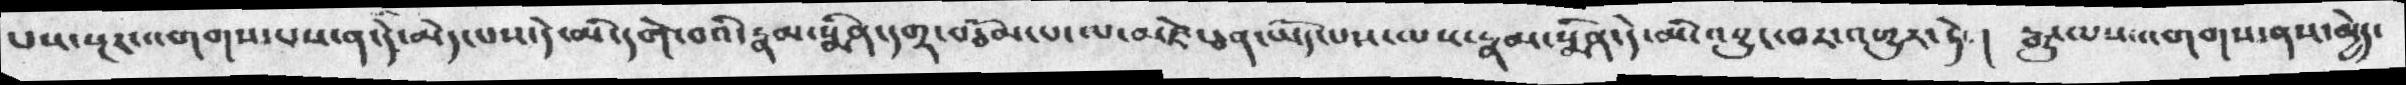པས་སྔར་འགགས་པས་ན་དེ་མེད་པས་དེ་མི་དགེ་བའི་རྣམ་སྨིན་དགྲ་བཅོམ་པ་ལ་མཛེ་ཅན་ཡོད་པས་ལས་རྣམ་སྨིན་དེ་མི་འབྱུང་བར་འགྱུར་ཏེ་ །  རྒྱུ་ལས་འགགས་ནས་མྱེད་
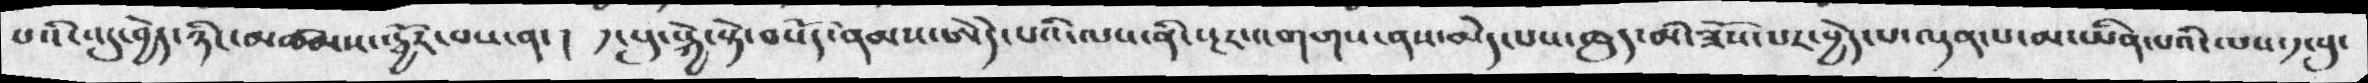པའི་འདུ་བྱེད་ཉིང་མཚམས་སྦྱོར་བས་ན་ །  ༡་པུ་སྐྱེ་སྟེ་བསོད་ནམས་ཨེདེ་པའི་ལས་ནི་སྔར་འགགས་ནས་མེད་པས་ཆུད་མི་ཟོས་པར་བྱེད་པ་ལྡན་པ་མ་ཡིན་པའི་ལས་༡་པུ་
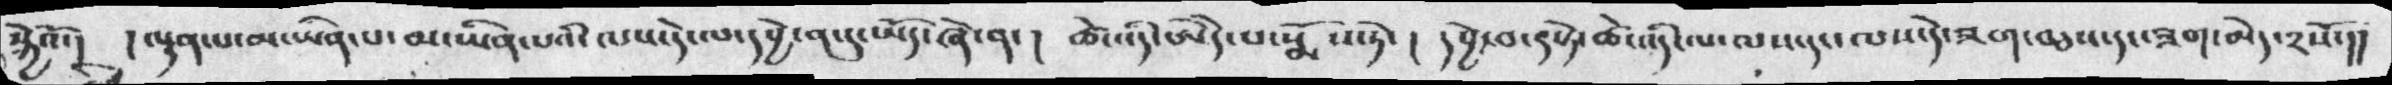སྐྱེའོ་།  །ལྡན་པ་མ་ཡིན་པའི་ལས་དེ་ལ་དབྱེ་ན་དུ་ཡོད་ཞེ་ན་ །  ཚེ་འདི་ཨེདེ་པ་སྨོས་ཏེ་ །  དབྱེ་བ་༩སྟེ་ཚེ་འདི་ལ་ལས་དང་ལས་དེ་ཟག་བཅས་དང་ཟག་མེད་༢སོ་།།
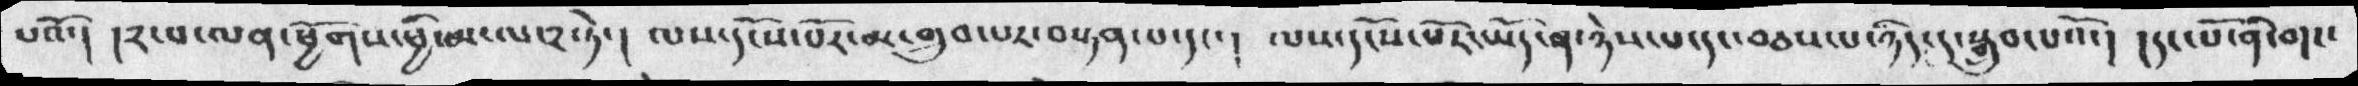པའོ་།  །༢་པ་ལན་ཕྱོགས་ཕྱི་མ་ལ་༢་ཏེ་།  ལས་དངོས་པོར་མ་གྲུབ་པར་བསྟན་པ་དང་ ། ལས་དངོས་པོར་ཡོད་ན་ཉེས་པ་དང་བཅས་པ་ཉིད་དུ་སྒྲུབ་པའོ་།  །དང་པོ་ནི་གང་
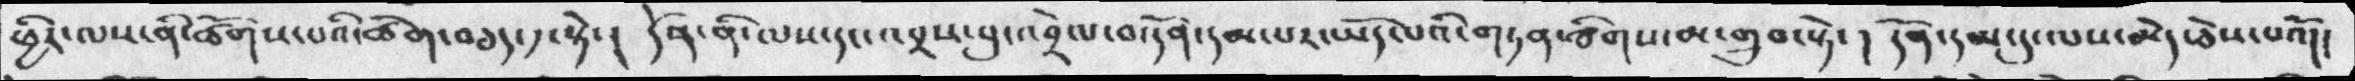ཕྱིར་ལས་ནི་ཚོགས་པའི་ཚིག་བཅད་༡་སྟེ་།  དོན་ནི་ལས་དང་འབྲས་བུ་འབྲེལ་བ་དོན་དམ་པར་ཡོད་པའི་གཏན་ཚིགས་མ་གྲུབ་སྟེ་ ། དོན་དམ་དུ་ལས་མེད་ཅེས་པའོ།།
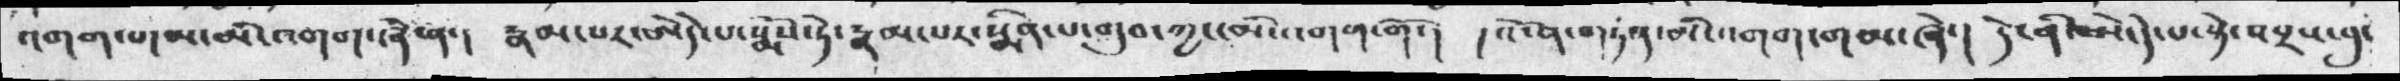འགག་གམ་མི་འགག་ཞེ་ན་།  རྣམ་པར་ཨེདེ་པ་སྨོས་ཏེ་རྣམ་པར་སྨིན་པ་གྲུབ་ཀྱང་མི་འགག་གོ་།  །འོ་ན་གཏན་མི་འགག་གམ་ཞེ་།  དེ་ནི་ཨེ་དེ་པ་སྟེ་འབྲས་བུ་
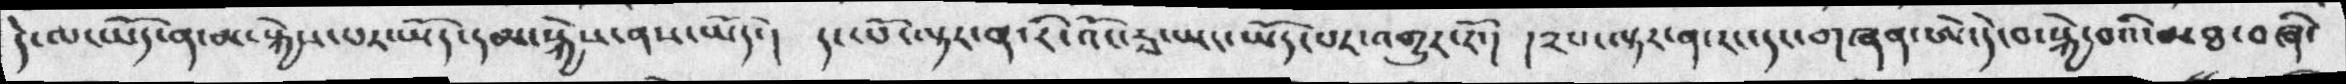དེ་ལ་ཡོད་ན་མ་སྐྱེས་པར་ཡོད་དམ་སྐྱེས་ནས་ཡོད་།   དང་པོ་ལྟར་ན་རི་བོང་རྭ་ཡང་ཡོད་པར་འགྱུར་རོ་།   །༢པ་ལྟར་ན་རང་དང་གཞན་ཨེ་དེ་བ་སྐྱེ་བའི་མཐ་བཞི་
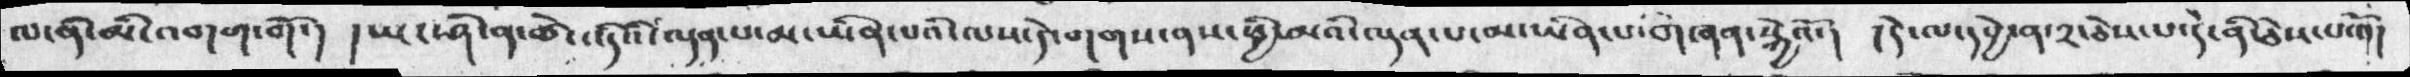ལ་ནི་མི་འགག་གོ་།  ། ཡང་ཤི་ན་ཚེ་འདིའི་ལྡན་པ་མ་ཡིན་པའི་ལས་དེ་གགས་ནས་ཕྱི་མའི་ལྡན་པ་མ་ཡིན་པ་གཞན་སྐྱེའོ་།  །དེ་ལ་དབྱེ་ན་༢་ཅེས་པ་དེ་ནི་ཅེས་པའོ།།
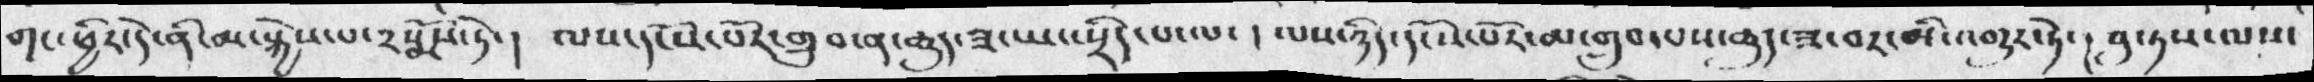གང་ཕྱིར་དེ་ནི་མ་སྐྱེས་པ་༢སྨོས་ཏེ་།  ལས་དངོས་པོར་གྲུབ་ན་ཆུད་ཟ་ཡང་སྲིད་པལས་ ། ལས་ཉིད་དངོས་པོར་མ་གྲུབ་པས་ཆུད་ཟ་བར་མི་འགྱུར་ཏེ་ ། བུ་ཏས་ལས་
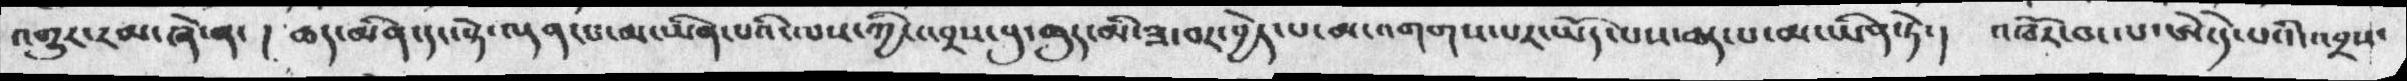འགྱུར་རམ་ཞེ་ན་  །ཆད་མིན་དང་སྟེ་ལྡན་པ་མ་ཡིན་པའི་ལས་ཀྱི་འབྲས་བུ་ཆུད་མི་ཟ་བར་བྱེད་པ་མ་འགགས་པར་ཡོད་པས་ཆད་པ་མ་ཡིན་ཏེ་ ། འཁོར་བ་ལ་ཨེདེ་པའི་འབྲས་
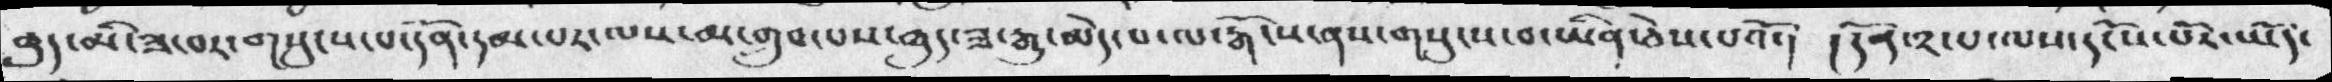ཆུད་མི་ཟ་བར་གསུངས་པ་དོན་དམ་པར་ལས་མ་གྲུབ་པས་ཆུད་ཟ་རྒྱུ་མེད་པ་ལ་རྒོངས་ནས་གསུངས་བ་ཡིན་ཅེས་པའོ་ །  །དོན་༢་པ་ལས་དངོས་པོར་ཡོད་
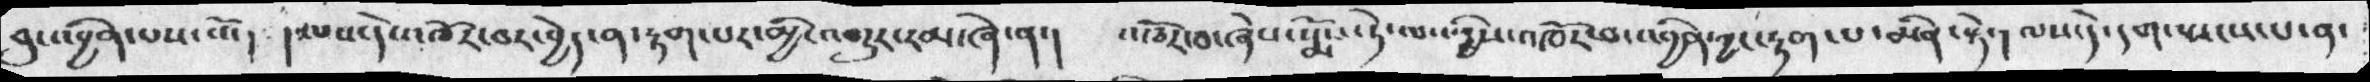བུ་འབྱིན་པས་སོ་།  །ལས་དེ་འཁོར་བར་བྱེད་ན་རྟག་པར་མྱི་འགྱུར་རམ་ཞེ་ན་།  འཁོར་བ་ཞེས་སྨོས་ཏེ་ལས་ཀྱིས་འཁོར་བ་འབྱིན་ཀྱང་རྟག་པ་མིན་སྟེ་། ལས་དེ་དག་སྤང་པ་ན་
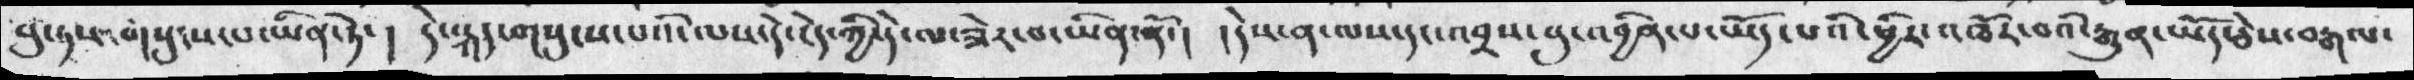བུ་ཏས་གསུངས་པ་ཡིན་ཏེ་ ། དེ་སྐད་གསུངས་པའི་ལས་དེ་ངེད་ཀྱི་དེ་ལ་ཟེར་བ་ཡིན་ནོ་།  །དེས་ན་ལས་དང་འབྲས་བུ་འབྱིན་པ་ཡོད་པའི་ཕྱིར་འཁོར་བའི་རྒྱུན་ཡོད་ཅེས་བརྒལ་
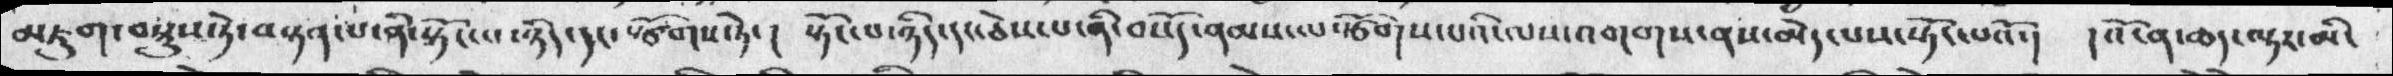མཇུག་བསྟུས་ཏེ་བསྟན་པ་ནི་སྟོང་པ་ཉིད་དང་སྩོགས་ཏེ་ ། སྟོང་བ་ཉིད་དང་ཅེས་པ་ནི་བསོད་ནམས་ལསྩོགས་པའི་ལས་འགགས་ནས་མེད་པས་སྟོང་པའི་།  །འོ་ན་ཆད་ལྟར་མི་
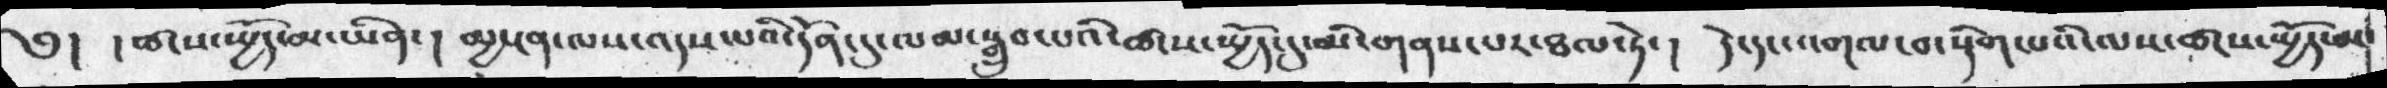༅།  ། ཚངས་སྤྱོད་མ་ཡིན་།  མྱ་ངན་ལས་འདས་པའི་དོན་དུ་ལམ་སྒྲུབ་པའི་ཚངས་སྤྱོད་དུ་མི་གནས་པར་ཐལ་ཏེ་ །  དེ་དང་འགལ་བ་སྡིག་པའི་ལས་ཚངས་སྤྱོད་པར་
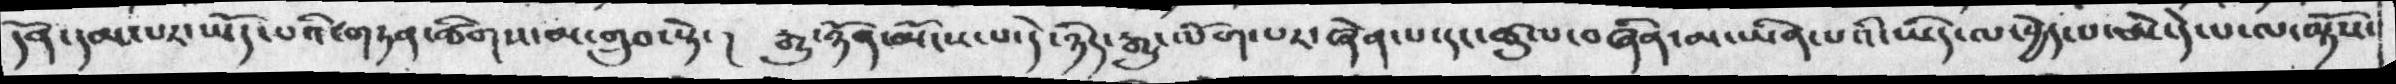དོན་དམ་པར་ཡོད་པའི་གཏན་ཚིགས་མ་གྲུབ་སྟེ་ ། རྒྱུ་ཉོན་མོངས་པ་དེ་ཉིད་རྒྱུ་ལོག་པར་ཞེན་པ་དང་ཚུལ་བཞིན་མ་ཡིན་པའི་ཡིད་ལ་བྱེད་པ་ཨེ་དེ་པ་ལ་ལྟོས་
